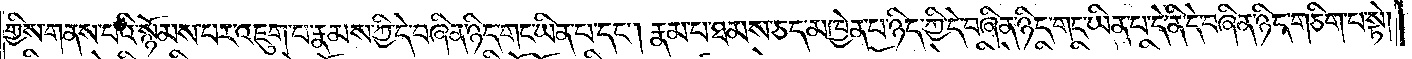གྱིས་གནས་པའི་སྙོམས་པར་འཇུག་པ་རྣམས་ཀྱི་དེ་བཞིན་ཉིད་གང་ཡིན་པ་དང༌། རྣམ་པ་ཐམས་ཅད་མཁྱེན་པ་ཉིད་ཀྱི་དེ་བཞིན་ཉིད་གང་ཡིན་པ་དེ་ནི་དེ་བཞིན་ཉིད་གཅིག་པ་སྟེ།
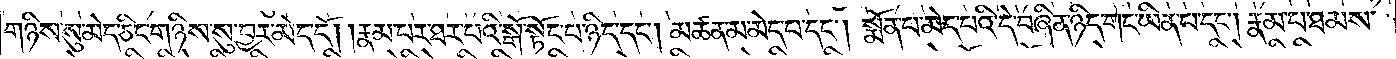གཉིས་སུ་མེད་ཅིང་གཉིས་སུ་བྱར་མེད་དོ། །རྣམ་པར་ཐར་པའི་སྒོ་སྟོང་པ་ཉིད་དང༌། མཚན་མ་མེད་པ་དང༌། སྨོན་པ་མེད་པའི་དེ་བཞིན་ཉིད་གང་ཡིན་པ་དང༌། རྣམ་པ་ཐམས་
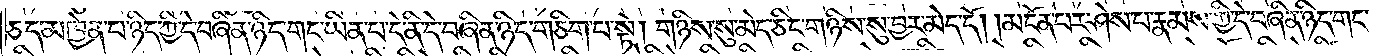ཅད་མཁྱེན་པ་ཉིད་ཀྱི་དེ་བཞིན་ཉིད་གང་ཡིན་པ་དེ་ནི་དེ་བཞིན་ཉིད་གཅིག་པ་སྟེ། གཉིས་སུ་མེད་ཅིང་གཉིས་སུ་བྱར་མེད་དོ། །མངོན་པར་ཤེས་པ་རྣམས་ཀྱི་དེ་བཞིན་ཉིད་གང་
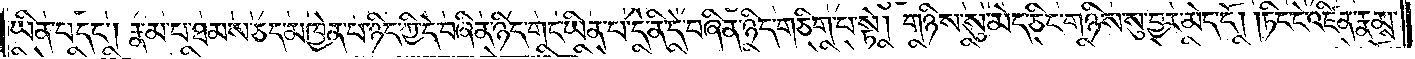ཡིན་པ་དང༌། རྣམ་པ་ཐམས་ཅད་མཁྱེན་པ་ཉིད་ཀྱི་དེ་བཞིན་ཉིད་གང་ཡིན་པ་དེ་ནི་དེ་བཞིན་ཉིད་གཅིག་པ་སྟེ། གཉིས་སུ་མེད་ཅིང་གཉིས་སུ་བྱར་མེད་དོ། །ཏིང་ངེ་འཛིན་རྣམས་
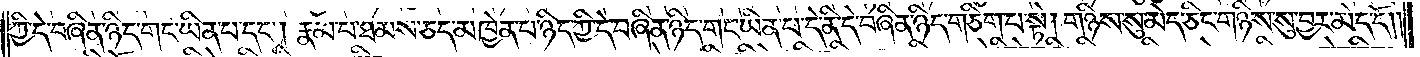ཀྱི་དེ་བཞིན་ཉིད་གང་ཡིན་པ་དང༌། རྣམ་པ་ཐམས་ཅད་མཁྱེན་པ་ཉིད་ཀྱི་དེ་བཞིན་ཉིད་གང་ཡིན་པ་དེ་ནི་དེ་བཞིན་ཉིད་གཅིག་པ་སྟེ། གཉིས་སུ་མེད་ཅིང་གཉིས་སུ་བྱར་མེད་དོ༎
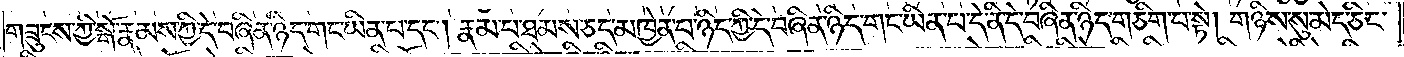གཟུངས་ཀྱི་སྒོ་རྣམས་ཀྱི་དེ་བཞིན་ཉིད་གང་ཡིན་པ་དང༌། རྣམ་པ་ཐམས་ཅད་མཁྱེན་པ་ཉིད་ཀྱི་དེ་བཞིན་ཉིད་གང་ཡིན་པ་དེ་ནི་དེ་བཞིན་ཉིད་གཅིག་པ་སྟེ། གཉིས་སུ་མེད་ཅིང་
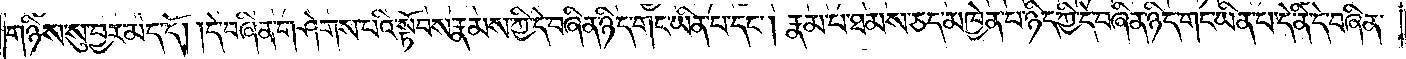གཉིས་སུ་བྱར་མེད་དོ། །དེ་བཞིན་གཤེགས་པའི་སྟོབས་རྣམས་ཀྱི་དེ་བཞིན་ཉིད་གང་ཡིན་པ་དང༌། རྣམ་པ་ཐམས་ཅད་མཁྱེན་པ་ཉིད་ཀྱི་དེ་བཞིན་ཉིད་གང་ཡིན་པ་དེ་ནི་དེ་བཞིན་
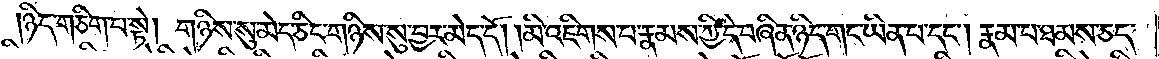ཉིད་གཅིག་པ་སྟེ། གཉིས་སུ་མེད་ཅིང་གཉིས་སུ་བྱར་མེད་དོ། །མི་འཇིགས་པ་རྣམས་ཀྱི་དེ་བཞིན་ཉིད་གང་ཡིན་པ་དང༌། རྣམ་པ་ཐམས་ཅད་
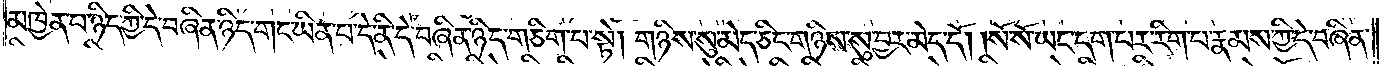མཁྱེན་པ་ཉིད་ཀྱི་དེ་བཞིན་ཉིད་གང་ཡིན་པ་དེ་ནི་དེ་བཞིན་ཉིད་གཅིག་པ་སྟེ། གཉིས་སུ་མེད་ཅིང་གཉིས་སུ་བྱར་མེད་དོ། །སོ་སོ་ཡང་དག་པར་རིག་པ་རྣམས་ཀྱི་དེ་བཞིན་
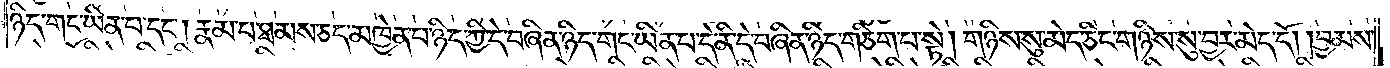ཉིད་གང་ཡིན་པ་དང༌། རྣམ་པ་ཐམས་ཅད་མཁྱེན་པ་ཉིད་ཀྱི་དེ་བཞིན་ཉིད་གང་ཡིན་པ་དེ་ནི་དེ་བཞིན་ཉིད་གཅིག་པ་སྟེ། གཉིས་སུ་མེད་ཅིང་གཉིས་སུ་བྱར་མེད་དོ། །བྱམས་
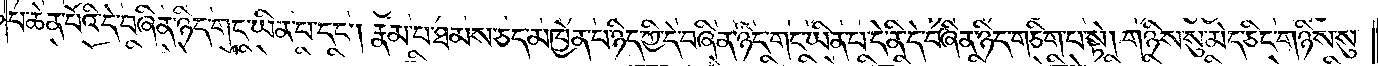པ་ཆེན་པོའི་དེ་བཞིན་ཉིད་གང་ཡིན་པ་དང༌། རྣམ་པ་ཐམས་ཅད་མཁྱེན་པ་ཉིད་ཀྱི་དེ་བཞིན་ཉིད་གང་ཡིན་པ་དེ་ནི་དེ་བཞིན་ཉིད་གཅིག་པ་སྟེ། གཉིས་སུ་མེད་ཅིང་གཉིས་སུ་
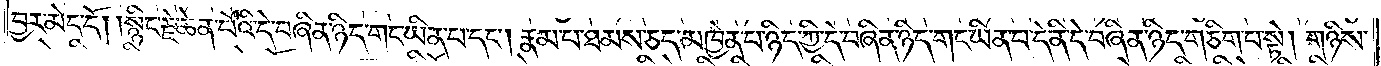བྱར་མེད་དོ། །སྙིང་རྗེ་ཆེན་པོའི་དེ་བཞིན་ཉིད་གང་ཡིན་པ་དང༌། རྣམ་པ་ཐམས་ཅད་མཁྱེན་པ་ཉིད་ཀྱི་དེ་བཞིན་ཉིད་གང་ཡིན་པ་དེ་ནི་དེ་བཞིན་ཉིད་གཅིག་པ་སྟེ། གཉིས་
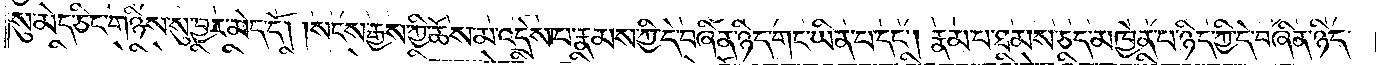སུ་མེད་ཅིང་གཉིས་སུ་བྱར་མེད་དོ། །སངས་རྒྱས་ཀྱི་ཆོས་མ་འདྲེས་པ་རྣམས་ཀྱི་དེ་བཞིན་ཉིད་གང་ཡིན་པ་དང༌། རྣམ་པ་ཐམས་ཅད་མཁྱེན་པ་ཉིད་ཀྱི་དེ་བཞིན་ཉིད་
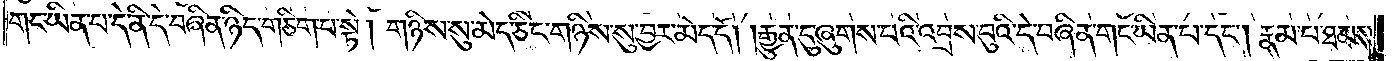གང་ཡིན་པ་དེ་ནི་དེ་བཞིན་ཉིད་གཅིག་པ་སྟེ། གཉིས་སུ་མེད་ཅིང་གཉིས་སུ་བྱར་མེད་དོ། །རྒྱུན་དུ་ཞུགས་པའི་འབྲས་བུའི་དེ་བཞིན་ཉིད་གང་ཡིན་པ་དང༌། རྣམ་པ་ཐམས་
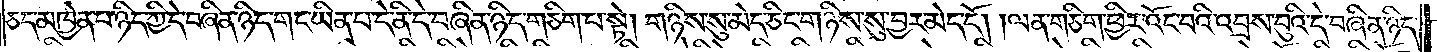ཅད་མཁྱེན་པ་ཉིད་ཀྱི་དེ་བཞིན་ཉིད་གང་ཡིན་པ་དེ་ནི་དེ་བཞིན་ཉིད་གཅིག་པ་སྟེ། གཉིས་སུ་མེད་ཅིང་གཉིས་སུ་བྱར་མེད་དོ། །ལན་གཅིག་ཕྱིར་འོང་བའི་འབྲས་བུའི་དེ་བཞིན་ཉིད་
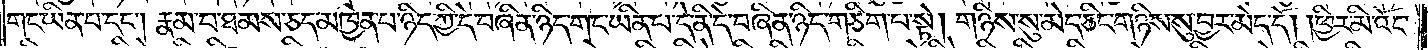གང་ཡིན་པ་དང༌། རྣམ་པ་ཐམས་ཅད་མཁྱེན་པ་ཉིད་ཀྱི་དེ་བཞིན་ཉིད་གང་ཡིན་པ་དེ་ནི་དེ་བཞིན་ཉིད་གཅིག་པ་སྟེ། གཉིས་སུ་མེད་ཅིང་གཉིས་སུ་བྱར་མེད་དོ། །ཕྱིར་མི་འོང་
